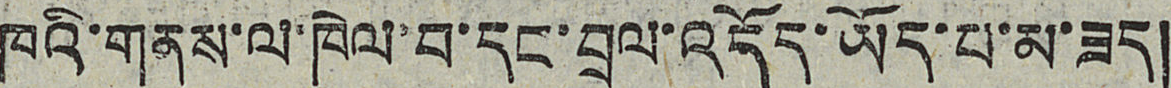ཁའི་གནས་ལ་ཁེལ་བ་དང་བྲལ་འདོད་ཡོད་པ་མ་ཟད།
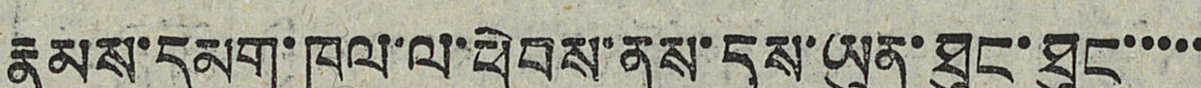རྣམས་དམག་ཁུལ་ལ་ཕེབས་ནས་དུས་ཡུན་ཐུང་ཐུང་་་་་
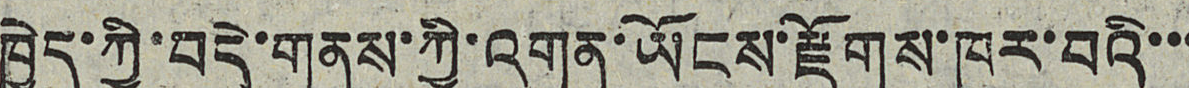ཁྱེད་ཀྱི་བདེ་གནས་ཀྱི་འགན་ཡོངས་རྫོགས་ཁུར་བའི་་་
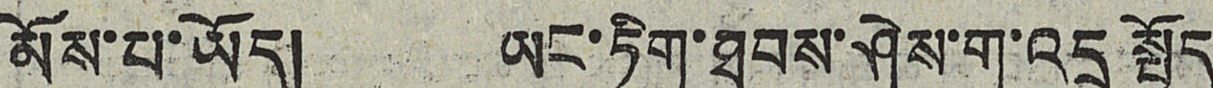མོས་པ་ཡོད། ཡང་ཏིག་ཐབས་ཤེས་ག་འདྲ སྤྱོད
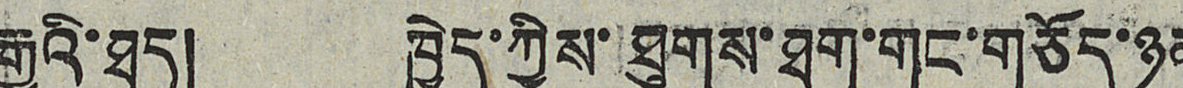རྒྱུའི་ཐད། ཁྱེད་ཀྱིས་ཐུགས་ཐག་གང་གཅོད་ཉན
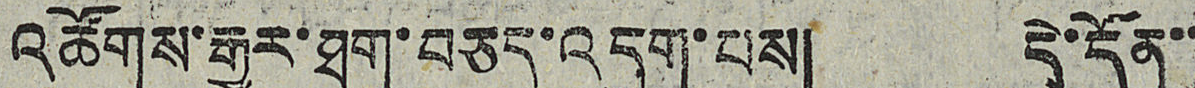འཚོགས་རྒྱུར་ཐག་བཅད་འདུག་པས། དེ་དོན་་
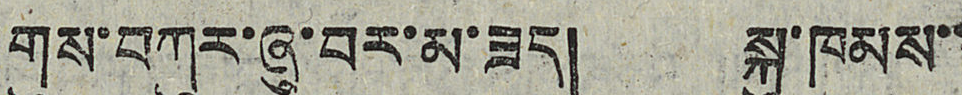གུས་བཀུར་ཞུ་བར་མ་ཟད། སྐུ་ཁམས་་
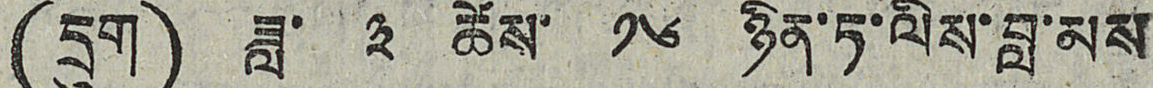(དྲུག) ཟླ་ ༣ ཚེས་ ༡༦ ཉིན་ཏ་ལིས་བླ་མས
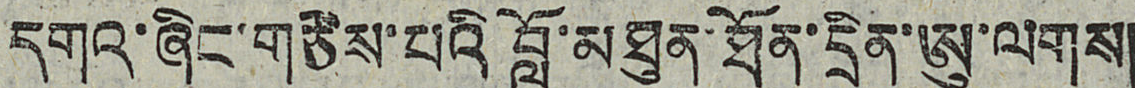དགའ་ཞིང་གཙེས་པའི བློ་མཐུན་ཐོན་དྲིན་ཨུ་ལགས།
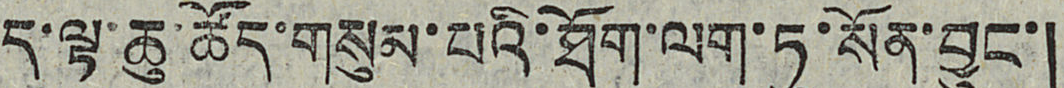ད་ལྟ་ཆུ་ཚོད་གསུམ་པའི་ཐོག་ལག་ཏུ་སོན་བྱུང་།
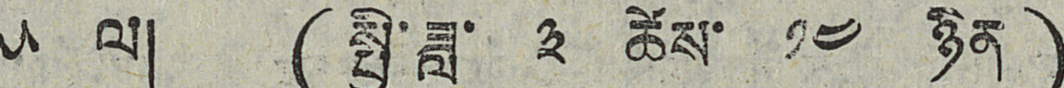༥ ལ། ( སྤྱི་ཟླ་ ༣ ཚེས་ ༡༤ ཉིན )
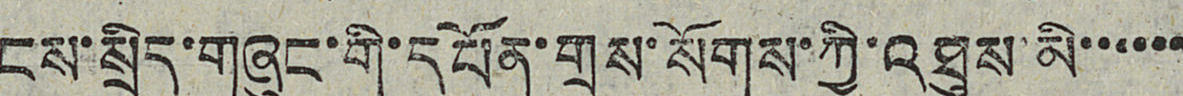ངས་སྲིད་གཞུང་གི་དཔོན་གྲས་སོགས་ཀྱི་འཐུས་མི་་་་་་
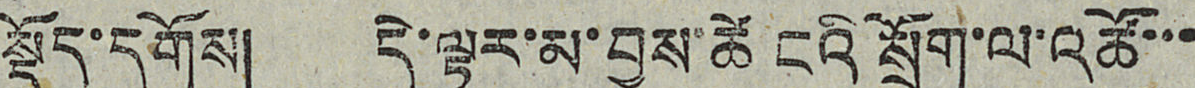སྡོད་དགོས། དེ་ལྟར་མ་བྱས་ཚེ ངའི་སྲོག་ལ་འཚོ་་་
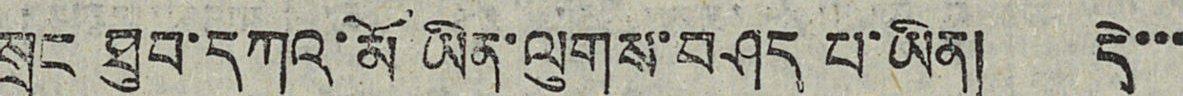སྲུང ཐུབ་དཀའ་མོ ཡིན་ལུགས་བཤད པ་ཡིན། དེ་་་
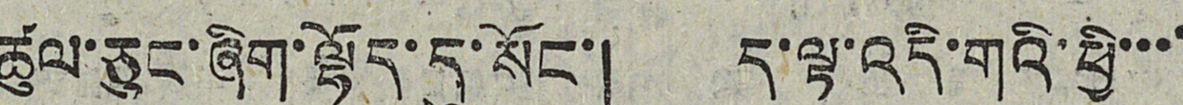ཚུལ་ཅུང་ཞིག་ལྷོད་དུ་སོང་། ད་ལྟ་འདི་གའི་ཕྱི་་་་
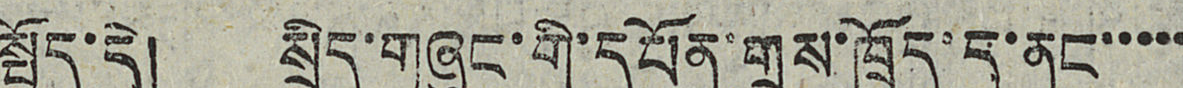སྤྱོད་དེ། སྲིད་གཞུང་གི་དཔོན་གྲས་ཁྲོད་དུ་ནང་་་་་
